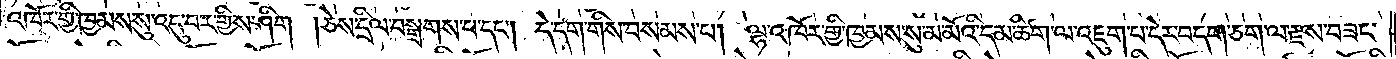འཁོར་གྱི་ཁྱམས་སུ་འདུ་བར་གྱིས་ཤིག །ཅེས་དྲིལ་བསྒྲགས་པ་དང༌། དེ་དག་གིས་བསམས་པ། ལྷ་འཁོར་གྱི་ཁྱམས་སུ་མ་མོའི་དམ་ཚིག་ལ་འཇུག་པ་དེར་བདག་ཅག་ལ་རྫས་བཟང་
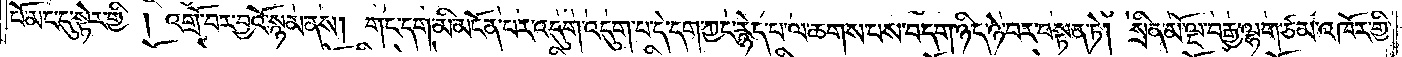པོ་མང་དུ་སྟེར་གྱི། འགྲོ་བར་བྱའོ་སྙམ་ནས། གང་དག་མི་མངོན་པར་འདུག་འདུག་པ་དེ་དག་ཀྱང་རྙེད་པ་ལ་ཆགས་པ་ས་བདག་ཉིད་ཉེ་བར་བསྟན་ཏེ། སྲིན་མོ་ལྔ་བརྒྱ་ལྷག་ཙམ་འཁོར་གྱི་
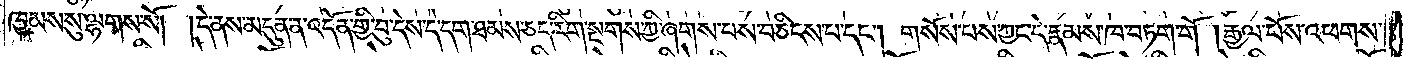ཁྱམས་སུ་ལྷགས་སོ། །དེ་ནས་མདུན་ན་འདོན་གྱི་བུ་དེས་དེ་དག་ཐམས་ཅད་རིག་སྔགས་ཀྱི་ཞགས་པས་བཅིངས་པ་དང༌། གསོས་བས་ཀྱང་དེ་རྣམས་ཁ་བཏག་གོ །རྒྱལ་པོས་འཕགས་
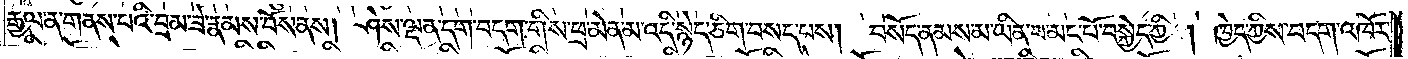རྒྱལ་ན་གནས་པའི་བྲམ་ཟེ་རྣམས་བོས་ནས། ཤེས་ལྡན་དག་བདག་གིས་ཕྲ་མེན་མ་འདི་སྙེད་ཅིག་བསད་པས། བསོད་ནམས་མ་ཡིན་པ་མང་པོ་བསྐྱེད་ཀྱི། ཁྱེད་ཀྱིས་བདག་འཁོར་
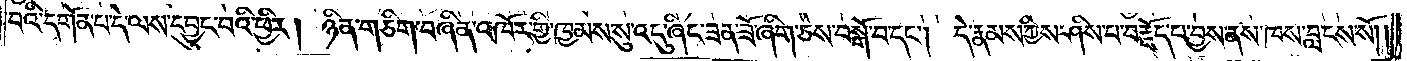བའི་དགོན་པ་དེ་ལས་དབྱུང་བའི་ཕྱིར། ཉིན་གཅིག་བཞིན་འཁོར་གྱི་ཁྱམས་སུ་འདུ་ཞིང་ཟན་ཟོ་ཞིག་ཅེས་བསྒོ་བ་དང༌། དེ་རྣམས་ཀྱིས་ཤིས་པ་བརྗོད་པ་བྱས་ནས་ཁས་བླངས་སོ༎
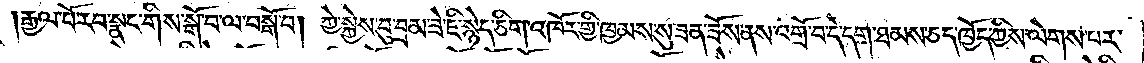རྒྱལ་པོ་རབ་སྣང་གིས་སྒོ་བ་ལ་བསྒོ་བ། ཀྱེ་སྐྱེས་བུ་བྲམ་ཟེ་ཇི་སྙེད་ཅིག་འཁོར་གྱི་ཁྱམས་སུ་ཟན་ཟོས་ནས་འགྲོ་བ་དེ་དག་ཐམས་ཅད་ཁྱོད་ཀྱིས་ལེགས་པར་
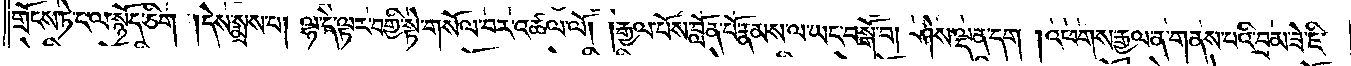གྲོངས་ཏེ་ང་ལ་སྙོད་ཅིག །དེས་སྨྲས་པ། ལྷ་དེ་ལྟར་བགྱི་སྟེ་གསོལ་བར་འཚལ་ལོ། །རྒྱལ་པོས་བློན་པོ་རྣམས་ལ་ཡང་བསྒོ་བ། ཤེས་ལྡན་དག །འཕགས་རྒྱལ་ན་གནས་པའི་བྲམ་ཟེ་ཇི་
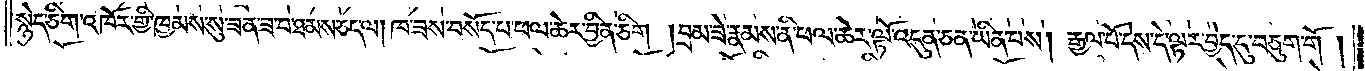སྙེད་ཅིག་འཁོར་གྱི་ཁྱམས་སུ་ཟན་ཟ་བ་ཐམས་ཅད་ལ། ཁ་ཟས་བསོད་པ་ཕལ་ཆེར་བྱིན་ཅིག །བྲམ་ཟེ་རྣམས་ནི་ཕལ་ཆེར་ལྟོ་འདུན་ཅན་ཡིན་པས། རྒྱལ་པོ་དེས་དེ་ལྟར་བྱེད་དུ་བཅུག་གོ།
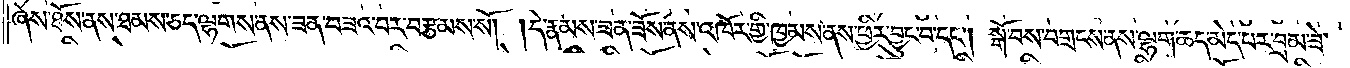ཞེས་ཐོས་ནས་ཐམས་ཅད་ལྷགས་ནས་ཟན་བཟའ་བར་བརྩམས་སོ། །དེ་རྣམས་ཟན་ཟོས་ནས་འཁོར་གྱི་ཁྱམས་ནས་ཕྱིར་བྱུང་བ་དང༌། སྒོ་བས་བགྲངས་ནས་ལྷག་ཆད་མེད་པར་བྲམ་ཟེ་
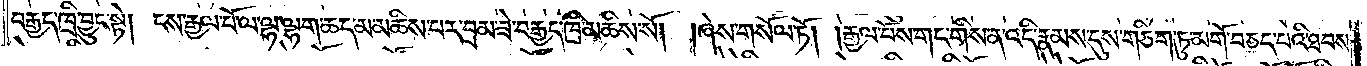བརྒྱད་ཁྲི་བྱུང་སྟེ། ངས་རྒྱལ་པོ་ལ་ལྷ་ལྷག་ཆད་མ་མཆིས་པར་བྲམ་ཟེ་བརྒྱད་ཁྲི་མཆིས་སོ། །ཞེས་གསོལ་ཏོ། །རྒྱལ་པོས་གང་གིས་ན་འདི་རྣམས་དུས་གཅིག་ཏུ་མགོ་བཅད་པའི་ཐབས་
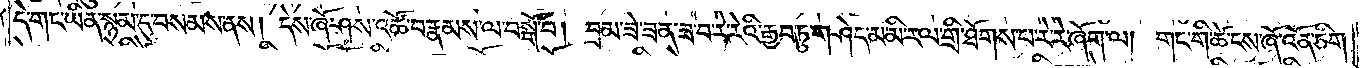དེ་གང་ཡིན་སྙམ་དུ་བསམས་ནས། དེས་ཞོ་ཤས་འཚོ་བ་རྣམས་ལ་བསྒོ་བ། བྲམ་ཟེ་ཟན་ཟ་བ་རེ་རེའི་རྒྱབ་ཏུ་གཤེད་མ་མི་རལ་གྲི་ཐོགས་པ་རེ་རེ་ཞོག་ལ། གང་གི་ཚེ་ངས་ཞོ་འོན་ཅིག་
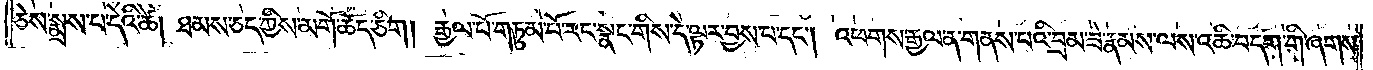ཅེས་སྨྲས་པ་དེའི་ཚེ། ཐམས་ཅད་ཀྱིས་མགོ་ཆོད་ཅིག །རྒྱལ་པོ་གཏུམ་པོ་རབ་སྣང་གིས་དེ་ལྟར་བྱས་པ་དང༌། འཕགས་རྒྱལ་ན་གནས་པའི་བྲམ་ཟེ་རྣམས་ལས་འཆི་བདག་གི་ཞགས་
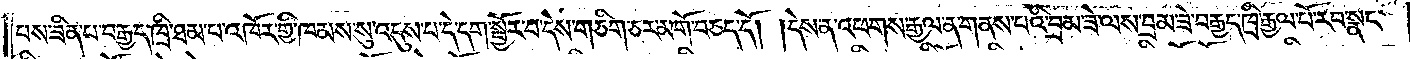པས་ཟིན་པ་བརྒྱད་ཁྲི་ཐམ་པ་འཁོར་གྱི་ཁམས་སུ་འདུས་པ་དེ་དག་སྦྱོར་བ་དེས་གཅིག་ཅར་མགོ་བཅད་དོ། །དེས་ན་འཕགས་རྒྱལ་ན་གནས་པའི་བྲམ་ཟེ་ལས་བྲམ་ཟེ་བརྒྱད་ཁྲི་རྒྱལ་པོ་རབ་སྣང་
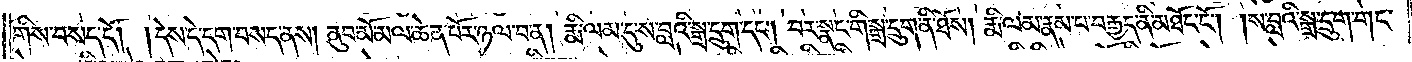གིས་བསད་དོ། །དེས་དེ་དག་བསད་ནས། ནུབ་མོ་མལ་ཆེན་པོར་ཉལ་པ་ན། རྨི་ལམ་དུ་ས་བླའི་སྒྲ་དྲུག་དང༌། བར་སྣང་གི་སྒྲ་དྲུག་ནི་ཐོས། རྨི་ལམ་རྣམ་པ་བརྒྱད་ནི་མཐོང་ངོ༌། །ས་བླའི་སྒྲ་དྲུག་གང་
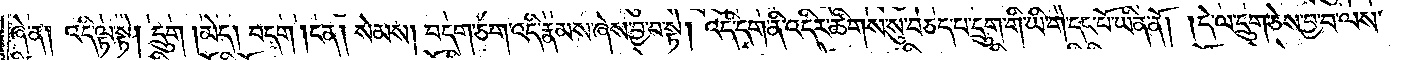ཞེ་ན། འདི་ལྟ་སྟེ། དྲུག །མེད། བདག །ངན། སེམས། བདག་ཅག་འདི་རྣམས་ཞེས་བྱ་བ་སྟེ། འདི་དག་ནི་འདིར་ཚིགས་སུ་བཅད་པ་དྲུག་གི་ཡི་གེ་དང་པོ་ཡིན་ནོ། །དེ་ལ་དྲུག་ཅེས་བྱ་བ་ལས་
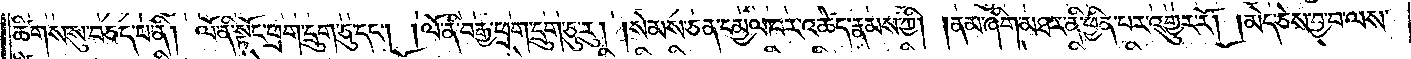ཚིགས་སུ་བཅད་པ་ནི། ལོ་ནི་སྟོང་ཕྲག་དྲུག་ཅུ་དང༌། །ལོ་ནི་བརྒྱ་ཕྲག་དྲུག་ཅུ་རུ། །སེམས་ཅན་དམྱལ་བར་འཚེད་རྣམས་ཀྱི། །ནམ་ཞིག་མཐར་ནི་ཕྱིན་པར་འགྱུར་རོ། །མེད་ཅེས་བྱ་བ་ལས་
